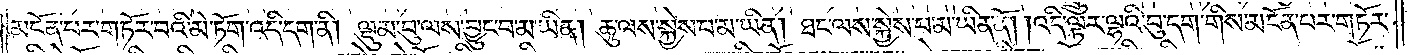མངོན་པར་གཏོར་བའི་མེ་ཏོག་འདི་དག་ནི། ལྡུམ་བུ་ལས་བྱུང་བ་མ་ཡིན། ཆུ་ལས་སྐྱེས་པ་མ་ཡིན། ཐང་ལས་སྐྱེས་པ་མ་ཡིན། ཐང་ལས་སྐྱེས་པ་མ་ཡིན་ནོ། །འདི་ལྟར་ལྷའི་བུ་དག་གིས་མངོན་པར་གཏོར་
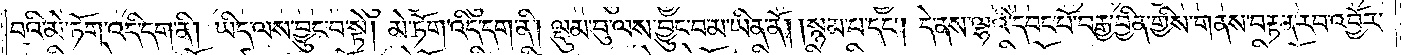བའི་མེ་ཏོག་འདི་དག་ནི། ཡིད་ལས་བྱུང་བ་སྟེ། མེ་ཏོག་འདི་དག་ནི། ལྡུམ་བུ་ལས་བྱུང་བ་མ་ཡིན་ནོ། སྙམ་པ་དང༌། དེ་ནས་ལྷའི་དབང་པོ་བརྒྱ་བྱིན་གྱིས་གནས་བརྟན་རབ་འབྱོར་
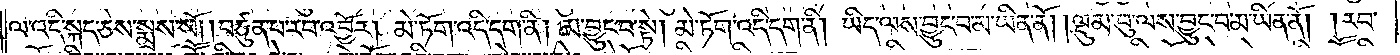ལ་འདི་སྐད་ཅེས་སྨྲས་སོ༎ བཙུན་པ་རབ་འབྱོར། མེ་ཏོག་འདི་དག་ནི། མ་བྱུང་བ་སྟེ། མེ་ཏོག་འདི་དག་ནི། ཡིད་ལས་བྱུང་བ་མ་ཡིན་ནོ། །ལྡུམ་བུ་ལས་བྱུང་བ་མ་ཡིན་ནོ། །རབ་
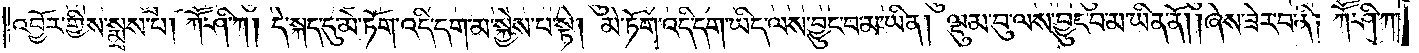འབྱོར་གྱིས་སྨྲས་པ། ཀཽ་ཤི་ཀ། དེ་སྐད་དུ་མེ་ཏོག་འདི་དག་མ་སྐྱེས་པ་སྟེ། མེ་ཏོག་འདི་དག་ཡིད་ལས་བྱུང་བ་མ་ཡིན། ལྡུམ་བུ་ལས་བྱུང་བ་མ་ཡིན་ནོ་ཞེས་ཟེར་བ་ནི། ཀཽ་ཤི་ཀ་
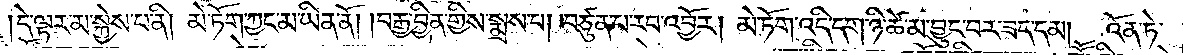དེ་ལྟར་མ་སྐྱེས་པ་ནི། མེ་ཏོག་ཀྱང་མ་ཡིན་ནོ། །བརྒྱ་བྱིན་གྱིས་སྨྲས་པ། བཙུན་པ་རབ་འབྱོར། མེ་ཏོག་འདི་དག་ཉེ་ཚེ་མ་བྱུང་བར་ཟད་དམ། འོན་ཏེ་
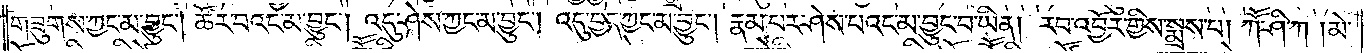གཟུགས་ཀྱང་མ་བྱུང༌། ཚོར་བའང་མ་བྱུང༌། འདུ་ཤེས་ཀྱང་མ་བྱུང༌། འདུ་བྱེད་ཀྱང་མ་བྱུང༌། རྣམ་པར་ཤེས་པའང་མ་བྱུང་བ་ཡིན། རབ་འབྱོར་གྱིས་སྨྲས་པ། ཀཽ་ཤི་ཀ །མེ་
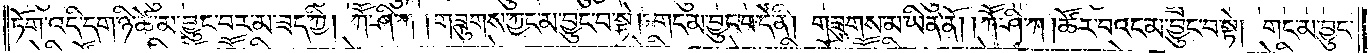ཏོག་འདི་དག་ཉེ་ཚེ་མ་བྱུང་བར་མ་ཟད་ཀྱི། ཀཽ་ཤི་ཀ །གཟུགས་ཀྱང་མ་བྱུང་བ་སྟེ། གང་མ་བྱུང་བ་དེ་ནི། གཟུགས་མ་ཡིན་ནོ། །ཀཽ་ཤི་ཀ །ཚོར་བའང་མ་བྱུང་བ་སྟེ། གང་མ་བྱུང་
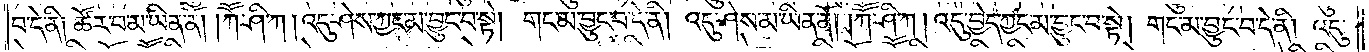བ་དེ་ནི། ཚོར་བ་མ་ཡིན་ནོ། །ཀཽ་ཤི་ཀ །འདུ་ཤེས་ཀྱང་མ་བྱུང་བ་སྟེ། གང་མ་བྱུང་བ་དེ་ནི་འདུ་ཤེས་མ་ཡིན་ནོ། །ཀཽ་ཤི་ཀ་འདུ་བྱེད་ཀྱང་མ་བྱུང་བ་སྟེ། གང་མ་བྱུང་བ་དེ་ནི། འདུ་
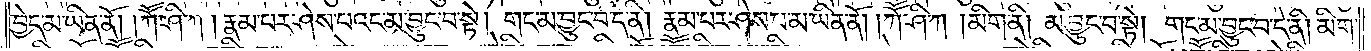བྱེད་མ་ཡིན་ནོ། །ཀཽ་ཤི་ཀ །རྣམ་པར་ཤེས་པའང་མ་བྱུང་བ་སྟེ། གང་མ་བྱུང་བ་དེ་ནི། རྣམ་པར་ཤེས་པ་མ་ཡིན་ནོ། །ཀཽ་ཤི་ཀ །མིག་ནི། མ་བྱུང་བ་སྟེ། གང་མ་བྱུང་བ་དེ་ནི། མིག་
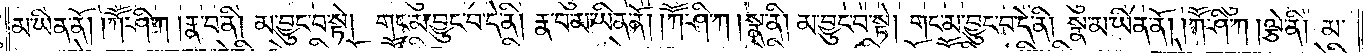མ་ཡིན་ནོ། །ཀཽ་ཤི་ཀ །རྣ་བ་ནི། མ་བྱུང་བ་སྟེ། གང་མ་བྱུང་བ་དེ་ནི། རྣ་བ་མ་ཡིན་ནོ། །ཀཽ་ཤི་ཀ །སྣ་ནི། མ་བྱུང་བ་སྟེ། གང་མ་བྱུང་བ་དེ་ནི། སྣ་མ་ཡིན་ནོ། །ཀཽ་ཤི་ཀ །ལྕེ་ནི། མ་
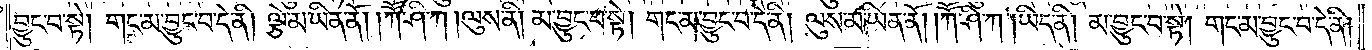བྱུང་བ་སྟེ། གང་མ་བྱུང་བ་དེ་ནི། ལྕེ་མ་ཡིན་ནོ། །ཀཽ་ཤི་ཀ །ལུས་ནི། མ་བྱུང་བ་སྟེ། གང་མ་བྱུང་བ་དེ་ནི་ལུས་མ་ཡིན་ནོ། །ཀཽ་ཤི་ཀ །ཡིད་ནི། མ་བྱུང་བ་སྟེ། གང་མ་བྱུང་བ་དེ་ནི།
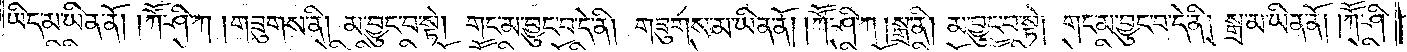ཡིད་མ་ཡིན་ནོ། །ཀཽ་ཤི་ཀ །གཟུགས་ནི། མ་བྱུང་བ་སྟེ། གང་མ་བྱུང་བ་དེ་ནི། གཟུགས་མ་ཡིན་ནོ། །ཀཽ་ཤི་ཀ །སྒྲ་ནི། མ་བྱུང་བ་སྟེ། གང་མ་བྱུང་བ་དེ་ནི། སྒྲ་མ་ཡིན་ནོ། །ཀཽ་ཤི་
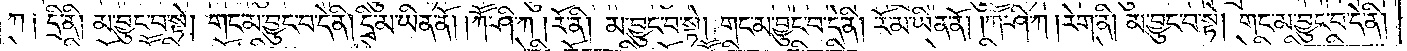ཀ༑ དྲི་ནི། མ་བྱུང་བ་སྟེ། གང་མ་བྱུང་བ་དེ་ནི། དྲི་མ་ཡིན་ནོ། །ཀཽ་ཤི་ཀ །རོ་ནི། མ་བྱུང་བ་སྟེ། གང་མ་བྱུང་བྱུང་བ་དེ་ནི། རོ་མ་ཡིན་ནོ། །ཀཽ་ཤི་ཀ །རེག་ནི། མ་བྱུང་བ་སྟེ། གང་མ་བྱུང་བ་དེ་ནི་
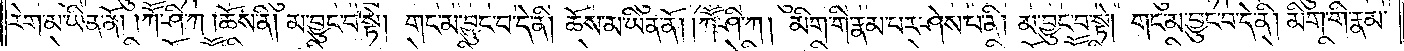རེག་མ་ཡིན་ནོ། །ཀཽ་ཤི་ཀ །ཆོས་ནི། མ་བྱུང་བ་སྟེ། གང་མ་བྱུང་བ་དེ་ནི་ཆོས་མ་ཡིན་ནོ། །ཀཽ་ཤི་ཀ །མིག་གི་རྣམ་པར་ཤེས་པ་ནི། མ་བྱུང་བ་སྟེ། གང་མ་བྱུང་བ་དེ་ནི། མིག་གི་རྣམ་
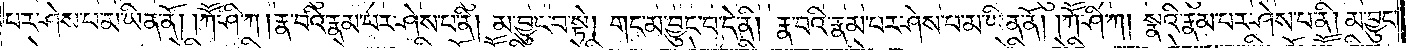པར་ཤེས་པ་མ་ཡིན་ནོ། །ཀཽ་ཤི་ཀ །རྣ་བའི་རྣམ་པར་ཤེས་པ་ནི། མ་བྱུང་བ་སྟེ། གང་མ་བྱུང་བ་དེ་ནི། རྣ་བའི་རྣམ་པར་ཤེས་པ་མ་ཡིན་ནོ། །ཀཽ་ཤི་ཀ །སྣའི་རྣམ་པར་ཤེས་པ་ནི། མ་བྱུང་
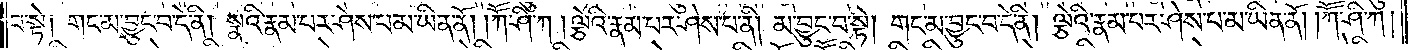བ་སྟེ། གང་མ་བྱུང་བ་དེ་ནི། སྣའི་རྣམ་པར་ཤེས་པ་མ་ཡིན་ནོ། །ཀཽ་ཤི་ཀ །ལྕེའི་རྣམ་པར་ཤེས་པ་ནི། མ་བྱུང་བ་སྟེ། གང་མ་བྱུང་བ་སྟེ། གང་མ་བྱུང་བ་དེ་ནི། ལྕེའི་རྣམ་པར་ཤེས་པ་མ་ཡིན་ནོ། །ཀཽ་ཤི་ཀ །
